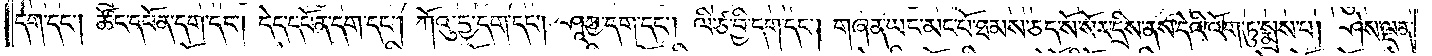དག་དང༌། ཚོང་དཔོན་དག་དང༌། དེད་དཔོན་དག་དང༌། ཀོའུ་དྱ་དག་དང༌། ཤཱཀྱ་དག་དང༌། ལི་ཙ་བྱི་དག་དང༌། གཞན་ཡང་མང་པོ་ཐམས་ཅད་སོ་སོར་དྲིས་ནས་དེའི་འོག་ཏུ་སྨྲས་པ། ཤེས་ལྡན་
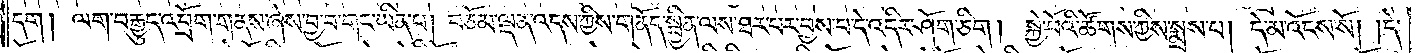དག། ལག་བརྒྱུད་འབྲོག་གནས་ཞེས་བྱ་བ་གང་ཡིན་པ། བཅོམ་ལྡན་འདས་ཀྱིས་གནོད་སྦྱིན་ལས་ཐར་པར་བྱས་པ་དེ་འདིར་ཤོག་ཅིག། སྐྱེ་བོའི་ཚོགས་ཀྱིས་སྨྲས་པ། དེ་མ་འོངས་སོ། །དེ་
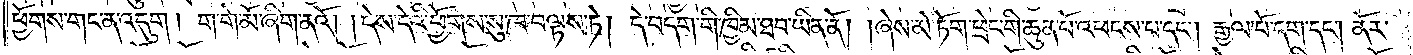ཕྱོགས་གང་ན་འདུག །ག་གེ་མོ་ཞིག་ནའོ། །དེས་དེའི་ཕྱོགས་སུ་ཁ་བལྟས་ཏེ། དེ་བདག་གི་ཁྱིམ་ཐབ་ཡིན་ནོ། །ཞེས་མེ་ཏོག་ཕྲེང་གི་ཆུན་པོ་འཕངས་པ་དང༌། རྒྱལ་པོ་དག་དང༌། ནོར་
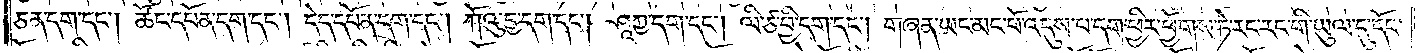ཅན་དག་དང༌། ཚོང་དཔོན་དག་དང༌། དེད་དཔོན་དག་དང༌། ཀོའུ་དྱ་དག་དང༌། ཤཱཀྱ་དག་དང༌། ལི་ཙ་བྱི་དག་དང༌། གཞན་ཡང་མང་པོ་འདུས་པ་དག་ཕྱིར་ཕྱོགས་ཏེ་རང་རང་གི་ཡུལ་དུ་དོང་
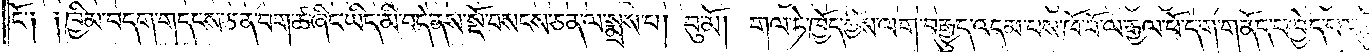ངོ༑ ༑ཁྱིམ་བདག་གདངས་ཅན་བག་ཚ་ཞིང་ཡིད་མི་བདེ་ནས་སྔོ་བསངས་ཅན་ལ་སྨྲས་པ། བུ་མོ། གལ་ཏེ་ཁྱོད་ཀྱིས་ལག་བརྒྱུད་འདམ་པས་ཁོ་བོ་ལ་རྒྱལ་པོ་དག་གནོད་པ་བྱེད་པར་གྱུར་
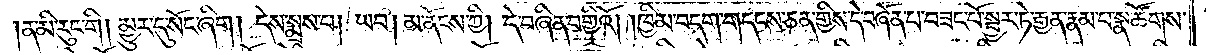།ན་མི་རུང་གི །མྱུར་དུ་སོང་ཞིག །དེས་སྨྲས་པ། ཡབ། མ་ནོངས་ཀྱི། དེ་བཞིན་བགྱིའོ། །ཁྱིམ་བདག་གདངས་ཅན་གྱིས་དེ་བཞིན་པ་བཟང་པོ་སྦྱར་ཏེ་རྒྱན་རྣམ་པ་སྣ་ཚོགས་
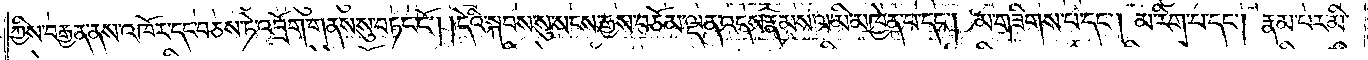ཀྱིས་བརྒྱན་ནས་འཁོར་དང་བཅས་ཏེ་འབྲོག་གནས་སུ་བཏང་ངོ༌། །དེའི་སྐབས་སུ་སངས་རྒྱས་བཅོམ་ལྡན་འདས་རྣམས་ལ་མི་མཁྱེན་པ་དང༌། མ་གཟིགས་པ་དང༌། མ་རིག་པ་དང༌། རྣམ་པར་མི་
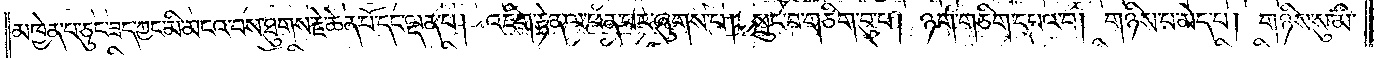མཁྱེན་པ་ཅུང་ཟད་ཀྱང་མི་མངའ་བས་ཐུགས་རྗེ་ཆེན་པོ་དང་ལྡན་པ། འཇིག་རྟེན་ལ་ཕན་པར་ཞུགས་པ། སྲུང་བ་གཅིག་བུ་པ། ཉག་གཅིག་དཔའ་བ། གཉིས་པ་མེད་པ། གཉིས་སུ་མི་
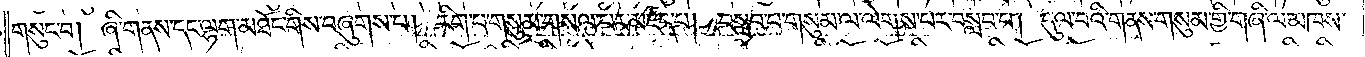གསུང་བ། ཞི་གནས་དང་ལྷག་མཐོང་གིས་བཞུགས་པ། རིག་པ་གསུམ་གསལ་བར་མཛད་པ། བསླབ་པ་གསུམ་ལ་ལེགས་པར་བསླབ་པ། དུལ་བའི་གནས་གསུམ་གྱི་གཞི་ལ་མཁས་
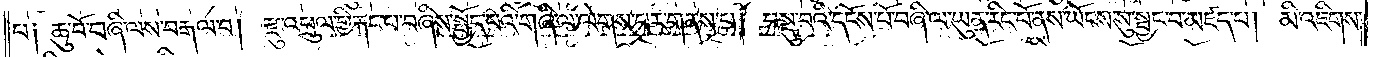པ༑ ཆུ་བོ་བཞི་ལས་བརྒལ་བ། རྫུ་འཕྲུལ་གྱི་རྐང་པ་བཞིས་སྤྱོད་པའི་གཞི་ལ་ལེགས་པར་གནས་པ། བསྡུ་བའི་དངོས་པོ་བཞི་ལ་ཡུན་རིང་པོ་ནས་ཡོངས་སུ་སྦྱང་བ་མཛད་པ། མི་འཇིགས་
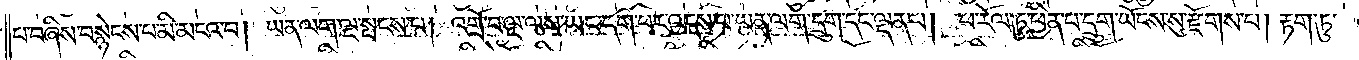པ་བཞིས་བསྙེངས་པ་མི་མངའ་བ། ཡན་ལག་ལྔ་སྤངས་པ། འགྲོ་བ་ལྔ་ལས་ཡང་དག་པར་འདས་པ་ཡན་ལག་དྲུག་དང་ལྡན་པ། ཕ་རོལ་ཏུ་ཕྱིན་པ་དྲུག་ཡོངས་སུ་རྫོགས་པ། རྟག་ཏུ་
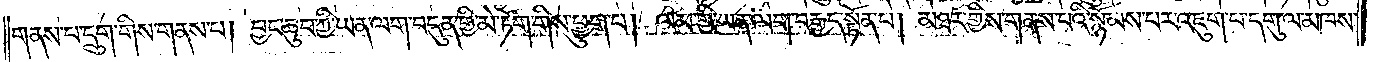གནས་པ་དྲུག་གིས་གནས་པ། བྱང་ཆུབ་ཀྱི་ཡན་ལག་བདུན་གྱི་མེ་ཏོག་གིས་ཕྱུག་པ། ལམ་གྱི་ཡན་ལག་བརྒྱད་སྟོན་པ། མཐར་གྱིས་གནས་པའི་སྙོམས་པར་འཇུག་པ་དགུ་ལ་མཁས་
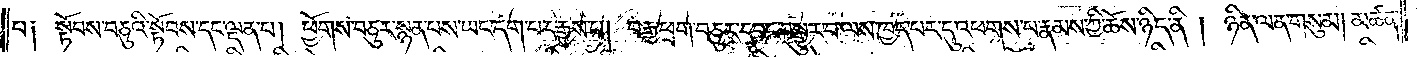པ༑ སྟོབས་བཅུའི་སྟོབས་དང་ལྡན་པ། ཕྱོགས་བཅུར་སྙན་པས་ཡང་དག་པར་རྒྱས་པ། བརྒྱ་ཕྲག་བཅུར་དབང་བསྒྱུར་བ་ལས་ཁྱད་པར་དུ་འཕགས་པ་རྣམས་ཀྱི་ཆོས་ཉིད་ནི། ཉིན་ལན་གསུམ། མཚན་
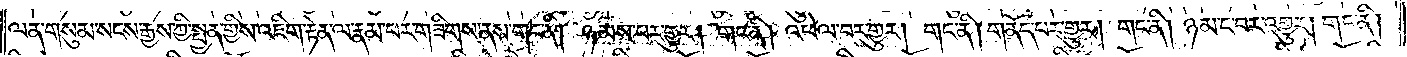ལན་གསུམ་སངས་རྒྱས་ཀྱི་སྤྱན་གྱིས་འཇིག་རྟེན་ལ་རྣམ་པར་གཟིགས་ནས་གང་ནི། ཉམས་པར་གྱུར། གང་ནི། འཕེལ་བར་གྱུར། གང་ནི། གནོད་པར་གྱུར། གང་ནི། ཉམ་ང་བར་འགྱུར། གང་ནི།
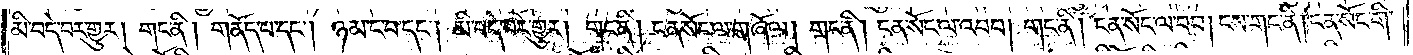མི་བདེ་བར་གྱུར། གང་ནི། གནོད་པ་དང༌། ཉམ་ང་བ་དང༌། མི་བདེ་བར་གྱུར། གང་ནི། ངན་སོང་ལ་གཞོལ། གང་ནི། ངན་སོང་ལ་འབབ། གང་ནི། ངན་སོང་ལ་བབ། ངས་གང་ནི། ངན་སོང་གི་
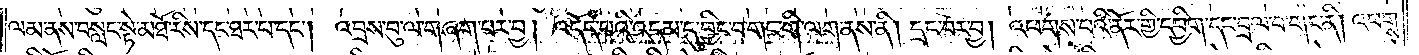ལམ་ནས་བསླང་སྟེ་མཐོ་རིས་དང་ཐར་པ་དང༌། འབྲས་བུ་ལ་གཞག་པར་བྱ། འདོད་པའི་འདམ་དུ་བྱིང་བ་གང་གི་ལག་ནས་ནི། དྲང་བར་བྱ། འཕགས་པའི་ནོར་གྱི་དབྱིག་དང་བྲལ་བ་གང་ནི། འཕགས་
